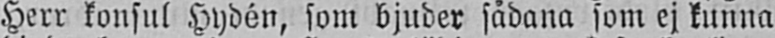Herr konsul Hydén, som bjuder sådana som ej kunna
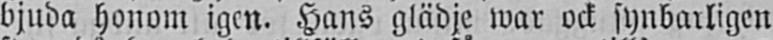bjuda honom igen. Hans glädje war ock synbarligen
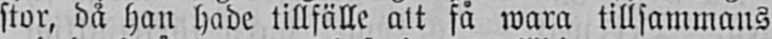stor, då han hade tillfälle att få wara tillsammans
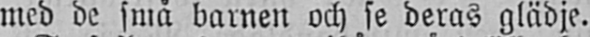med de små barnen och se deras glädje.
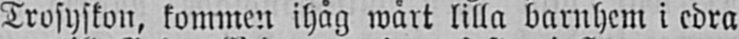Trosyskon, kommen ihåg wårt lilla barnhem i edra
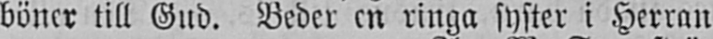böner till Gud. Beder en ringa syster i Herran
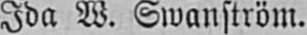Ida W. Swanström.
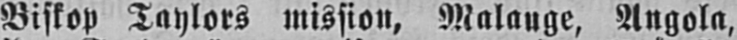Biskop Taylors mission, Malange, Angola,
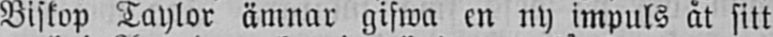Biskop Taylor ämnar gifwa en ny impuls åt sitt
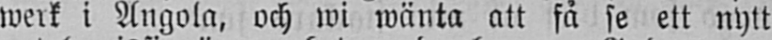werk i Angola, och wi wänta att få se ett nytt
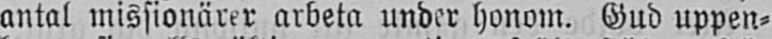antal missionärer arbeta under honom. Gud uppen-
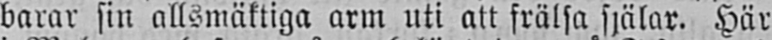barar sin allsmäktiga arm uti att frälsa själar. Här
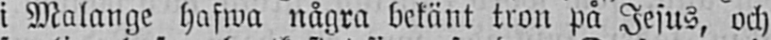i Malange hafwa några bekänt tron på Jesus, och
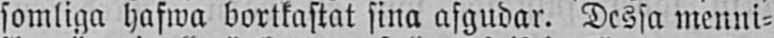somliga hafwa bortkastat sina afgudar. Dessa menni-
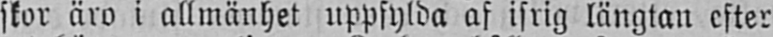skor äro i allmänhet uppfylda af ifrig längtan efter
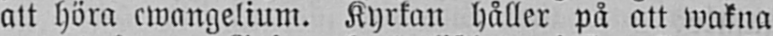att höra ewangelium. Kyrkan håller på att wakna
